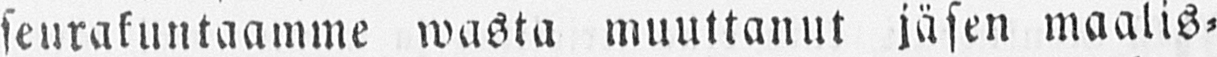seurakuntaamme wasta muuttanut jäsen maalis-
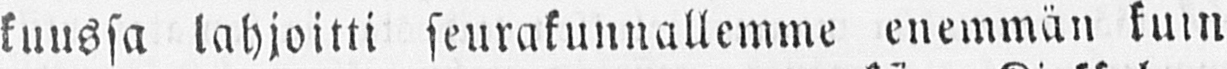kuussa lahjoitti seurakunnallemme enemmän kuin
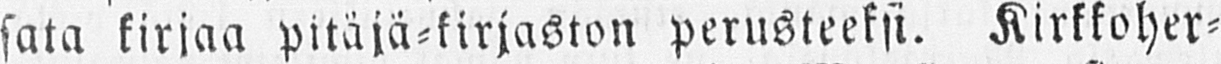sata kirjaa pitäjä-kirjaston perusteeksi. Kirkkoher-
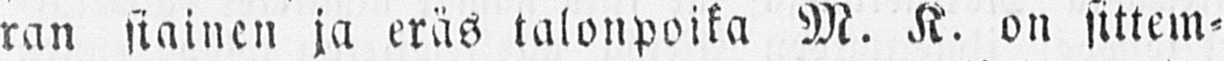ran siainen ja eräs talonpoika M. K. on sittem-
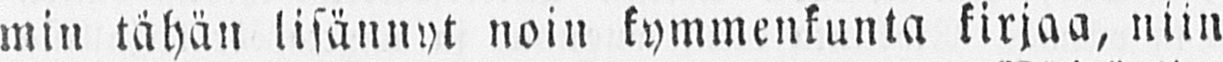min tähän lisännyt noin kymmenkunta kirjaa, niin
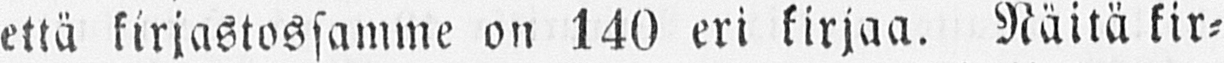että kirjastossamme on 140 eri kirjaa. Näitä kir-
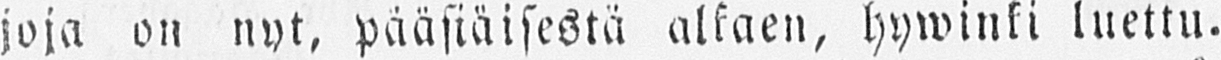joja on nyt, pääsiäisestä alkaen, hywinki luettu.
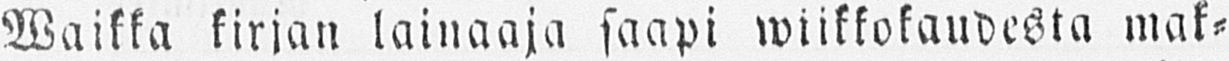Waikka kirjan lainaaja saapi wiikkokaudesta mak-
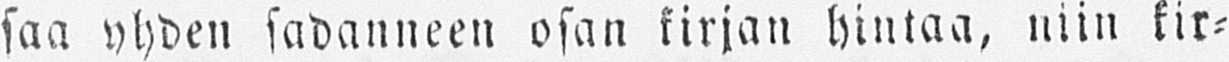saa yhden sadanneen osan kirjan hintaa, niin kir-
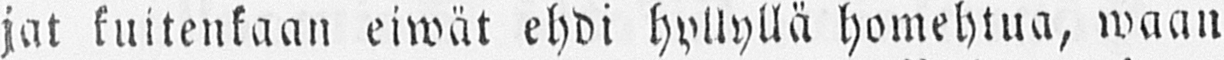jat kuitenkaan eiwät ehdi hyllyllä homehtua, waan
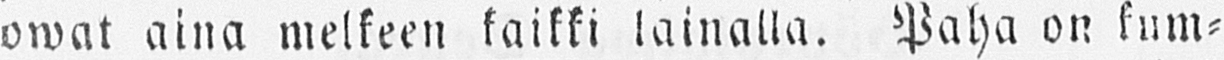owat aina melkeen kaikki lainalla. Paha on kum-
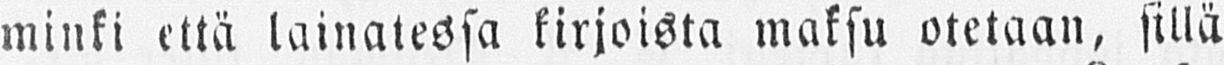minki että lainatessa kirjoista maksu otetaan, sillä
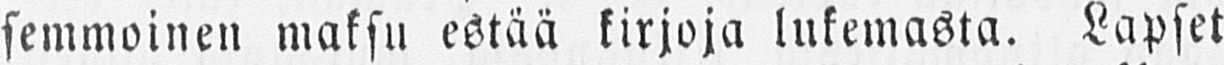semmoinen maksu estää kirjoja lukemasta. Lapset
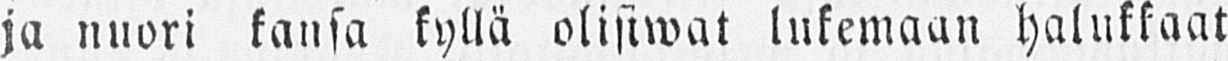ja nuori kansa kyllä olisiwat lukemaan halukkaat
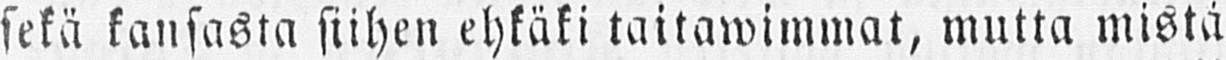sekä kansasta siihen ehkäki taitawimmat, mutta mistä
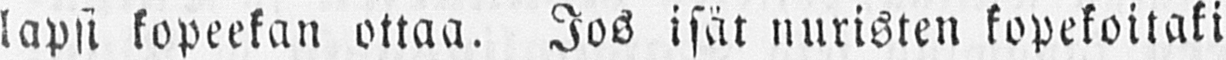lapsi kopeekan ottaa. Jos isät nuristen kopekoitaki
